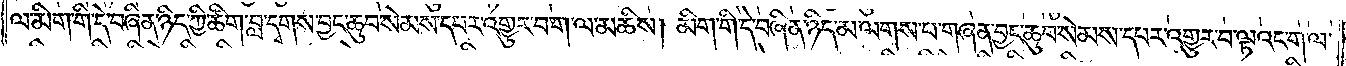ལ་མིག་གི་དེ་བཞིན་ཉིད་ཀྱི་ཚིག་བླ་དྭགས་བྱང་ཆུབ་སེམས་དཔར་འགྱུར་བ་ག་ལ་མཆིས། མིག་གི་དེ་བཞིན་ཉིད་མ་ལགས་པ་གཞན་བྱང་ཆུབ་སེམས་དཔར་འགྱུར་བ་ལྟའང་ག་ལ་
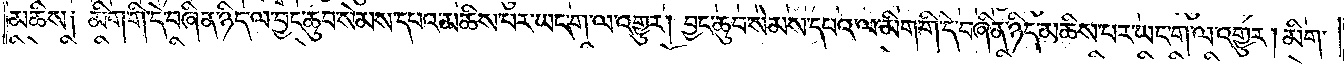མཆིས༑ མིག་གི་དེ་བཞིན་ཉིད་ལ་བྱང་ཆུབ་སེམས་དཔའ་མཆིས་པར་ཡང་ག་ལ་འགྱུར། བྱང་ཆུབ་སེམས་དཔའ་ལ་མིག་གི་དེ་བཞིན་ཉིད་མཆིས་པར་ཡང་ག་ལ་འགྱུར། མིག་
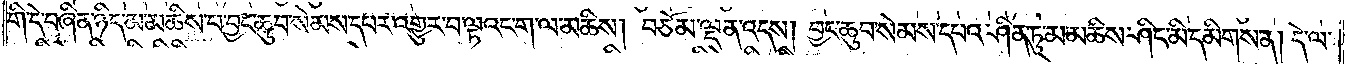གི་དེ་བཞིན་ཉིད་མ་མཆིས་པ་བྱང་ཆུབ་སེམས་དཔར་འགྱུར་བ་ལྟའང་ག་ལ་མཆིས། བཅོམ་ལྡན་འདས། བྱང་ཆུབ་སེམས་དཔའ་ཤིན་ཏུ་མ་མཆིས་ཤིང་མི་དམིགས་ན། དེ་ལ་
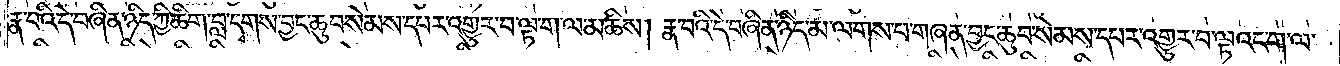རྣ་བའི་དེ་བཞིན་ཉིད་ཀྱི་ཚིག་བླ་དྭགས་བྱང་ཆུབ་སེམས་དཔར་འགྱུར་བ་ལྟ་ག་ལ་མཆིས། རྣ་བའི་དེ་བཞིན་ཉིད་མ་ལགས་པ་གཞན་བྱང་ཆུབ་སེམས་དཔར་འགྱུར་བ་ལྟའང་ག་ལ་
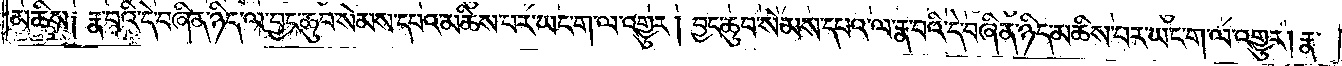མཆིས། རྣ་བའི་དེ་བཞིན་ཉིད་ལ་བྱང་ཆུབ་སེམས་དཔའ་མཆིས་པར་ཡང་ག་ལ་འགྱུར། བྱང་ཆུབ་སེམས་དཔའ་ལ་རྣ་བའི་དེ་བཞིན་ཉིད་མཆིས་པར་ཡང་ག་ལ་འགྱུར། རྣ་
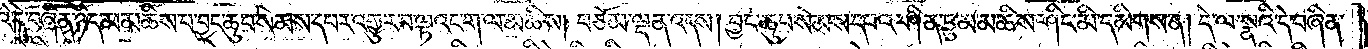བའི་དེ་བཞིན་ཉིད་མ་མཆིས་པ་བྱང་ཆུབ་སེམས་དཔར་འགྱུར་བ་ལྟའང་ག་ལ་མཆིས། བཅོམ་ལྡན་འདས། བྱང་ཆུབ་སེམས་དཔའ་ཤིན་ཏུ་མ་མཆིས་ཤིང་མི་དམིགས་ན། དེ་ལ་སྣའི་དེ་བཞིན་
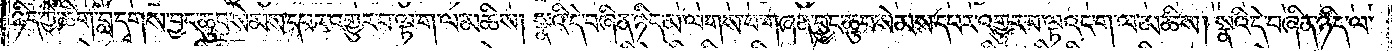ཉིད་ཀྱི་ཚིག་བླ་དྭགས་བྱང་ཆུབ་སེམས་དཔར་འགྱུར་བ་ལྟ་ག་ལ་མཆིས། སྣའི་དེ་བཞིན་ཉིད་མ་ལགས་པ་གཞན་བྱང་ཆུབ་སེམས་དཔར་འགྱུར་བ་ལྟའང་ག་ལ་མཆིས། སྣའི་དེ་བཞིན་ཉིད་ལ་
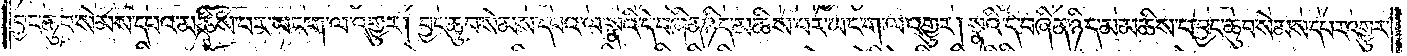བྱང་ཆུབ་སེམས་དཔའ་མཆིས་པར་ཡང་ག་ལ་འགྱུར། བྱང་ཆུབ་སེམས་དཔའ་ལ་སྣའི་དེ་བཞིན་ཉིད་མཆིས་པར་ཡང་ག་ལ་འགྱུར། སྣའི་དེ་བཞིན་ཉིད་མ་མཆིས་པ་བྱང་ཆུབ་སེམས་དཔར་འགྱུར་
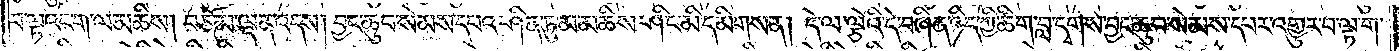བ་ལྟའང་ག་ལ་མཆིས། བཅོམ་ལྡན་འདས། བྱང་ཆུབ་སེམས་དཔའ་ཤིན་ཏུ་མ་མཆིས་ཤིང་མི་དམིགས་ན། དེ་ལ་ལྕེའི་དེ་བཞིན་ཉིད་ཀྱི་ཚིག་བླ་དྭགས་བྱང་ཆུབ་སེམས་དཔར་འགྱུར་བ་ལྟ་ག་
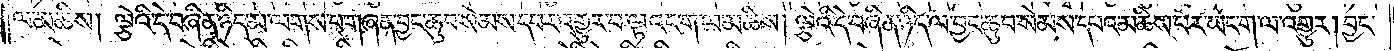ལ་མཆིས། ལྕེའི་དེ་བཞིན་ཉིད་མ་ལགས་པ་གཞན་བྱང་ཆུབ་སེམས་དཔར་འགྱུར་བ་ལྟའང་ག་ལ་མཆིས། ལྕེའི་དེ་བཞིན་ཉིད་ལ་བྱང་ཆུབ་སེམས་དཔའ་མཆིས་པར་ཡང་ག་ལ་འགྱུར། བྱང་
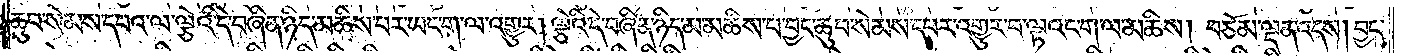ཆུབ་སེམས་དཔའ་ལ་ལྕེའི་དེ་བཞིན་ཉིད་མཆིས་པར་ཡང་ག་ལ་འགྱུར། ལྕེའི་དེ་བཞིན་ཉིད་མ་མཆིས་པ་བྱང་ཆུབ་སེམས་དཔར་འགྱུར་བ་ལྟའང་ག་ལ་མཆིས། བཅོམ་ལྡན་འདས། བྱང་
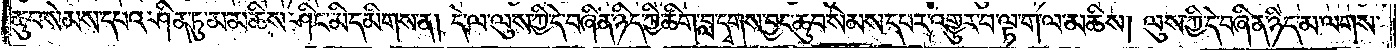ཆུབ་སེམས་དཔའ་ཤིན་ཏུ་མ་མཆིས་ཤིང་མི་དམིགས་ན། དེ་ལ་ལུས་ཀྱི་དེ་བཞིན་ཉིད་ཀྱི་ཚིག་བླ་དྭགས་བྱང་ཆུབ་སེམས་དཔར་འགྱུར་བ་ལྟ་ག་ལ་མཆིས། ལུས་ཀྱི་དེ་བཞིན་ཉིད་མ་ལགས་
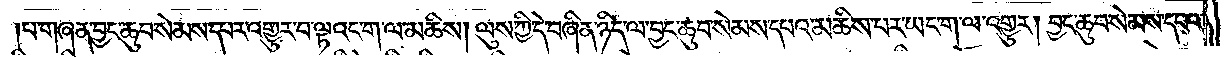པ་གཞན་བྱང་ཆུབ་སེམས་དཔར་འགྱུར་བ་ལྟའང་ག་ལ་མཆིས། ལུས་ཀྱི་དེ་བཞིན་ཉིད་ལ་བྱང་ཆུབ་སེམས་དཔའ་མཆིས་པར་ཡང་ག་ལ་འགྱུར། བྱང་ཆུབ་སེམས་དཔའ་
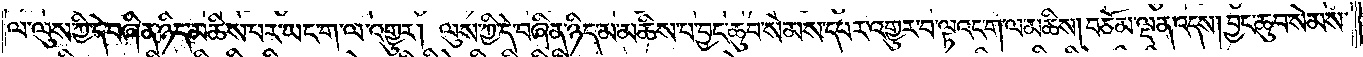ལ་ལུས་ཀྱི་དེ་བཞིན་ཉིད་མཆིས་པར་ཡང་ག་ལ་འགྱུར། ལུས་ཀྱི་དེ་བཞིན་ཉིད་མ་མཆིས་པ་བྱང་ཆུབ་སེམས་དཔར་འགྱུར་བ་ལྟའང་ག་ལ་མཆིས། བཅོམ་ལྡན་འདས། བྱང་ཆུབ་སེམས་
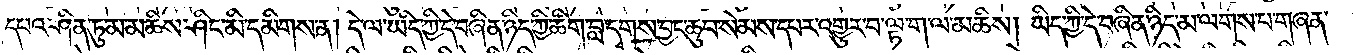དཔའ་ཤིན་ཏུ་མ་མཆིས་ཤིང་མི་དམིགས་ན། དེ་ལ་ཡིད་ཀྱི་དེ་བཞིན་ཉིད་ཀྱི་ཚིག་བླ་དྭགས་བྱང་ཆུབ་སེམས་དཔར་འགྱུར་བ་ལྟ་ག་ལ་མཆིས། ཡིད་ཀྱི་དེ་བཞིན་ཉིད་མ་ལགས་པ་གཞན་
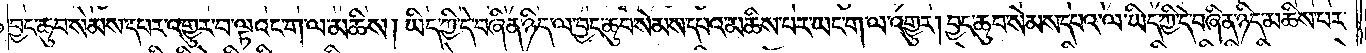བྱང་ཆུབ་སེམས་དཔར་འགྱུར་བ་ལྟའང་ག་ལ་མཆིས། ཡིད་ཀྱི་དེ་བཞིན་ཉིད་ལ་བྱང་ཆུབ་སེམས་དཔའ་མཆིས་པར་ཡང་ག་ལ་འགྱུར། བྱང་ཆུབ་སེམས་དཔའ་ལ་ཡིད་ཀྱི་དེ་བཞིན་ཉིད་མཆིས་པར་
